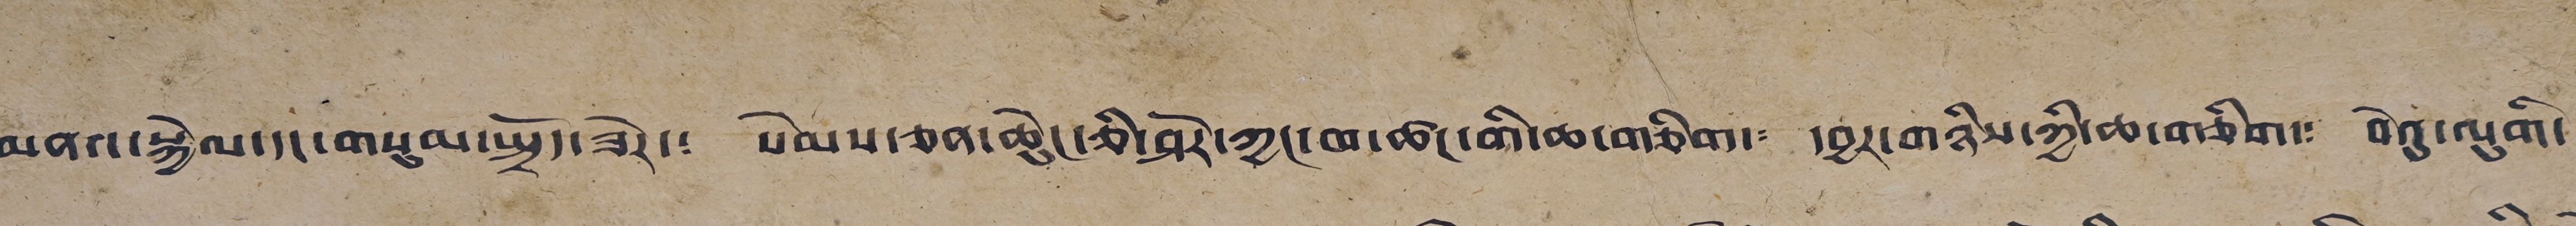མནའ་སྐྱེལ་དང་གསུམ་སྤྲོད་ཟེར་༴ སེམས་ཅན་ཆེུང་ཅི་ཤོར་ཀྱང་ཁ་ཚང་གི་ཆ་གཅིག་༴ དབྱར་གཉིས་ཀྱི་ཆ་བཅིག་༴ བེའུ་ལུགི་
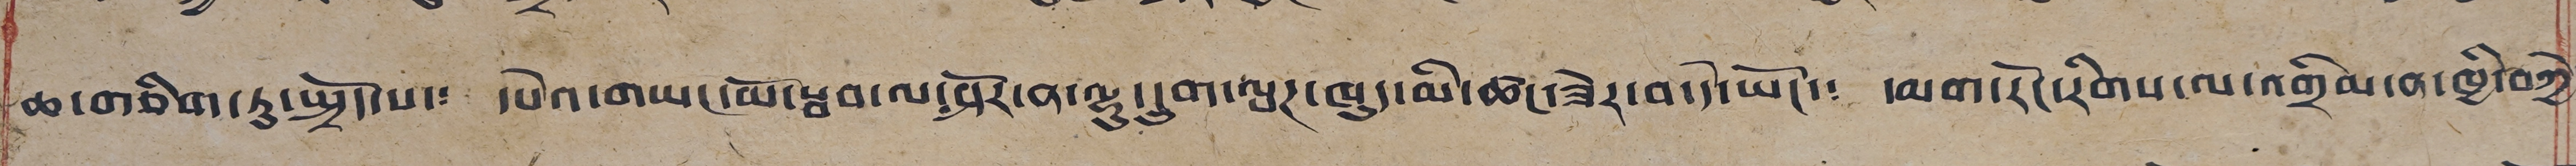ཆ་གཅིག་ཏུ་སྤྲོད་པ་༴ དཔེའ་གཡང་མོ་སྦབ་ལ་ཤོར་ན་ལྷུ་དྲུག་ལྤཊ་ཁུད་མི་ཚང་ཟེར་བ་དེ་ཡོང་༴ དམག་རོང་རིགས་ལ་འགྲིམ་ན་ཁྱི་བཀྱེ་
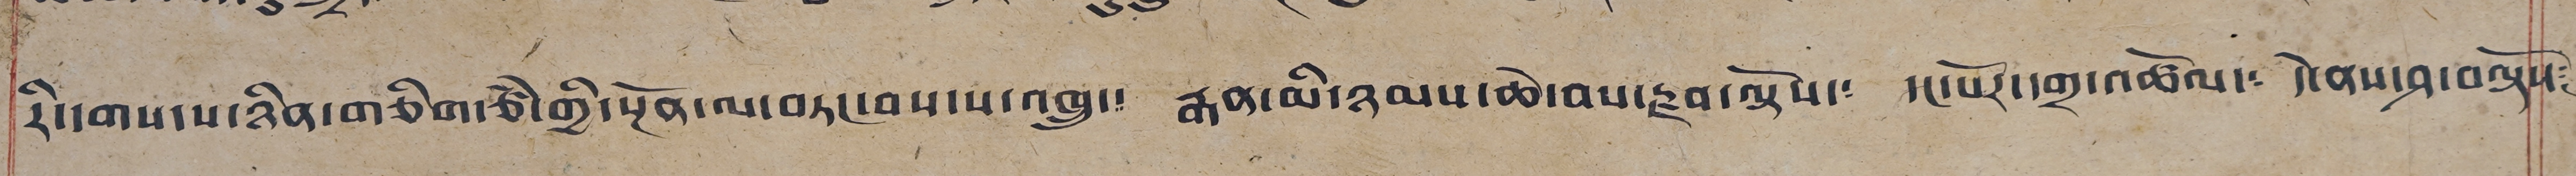རི་དགས་ས་ཉིན་གཅིག་ཙམ་གྱི་སྔོན་ལ་བཏང་བས་ས་འཁྲུ་༴ རྒན་མི་ཉམས་ཆེ་བས་རྫབ་ལྟོས་༴ དང་པོར་དགྲ་འཚོལ་༴ དེ་ནས་ཤ་བལྟོས༴
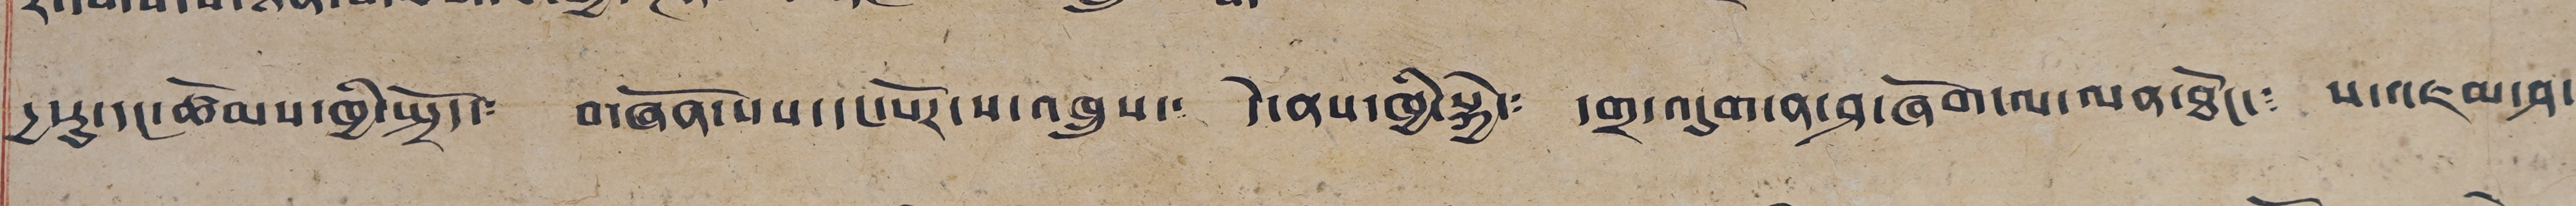དྱ་རུ་དང་ཚོམས་ཁྱི་སྤྲོད་༴ གཞོན་པ་དང་སོར་ས་འཁྲུས་༴ དེ་ནས་ཁྱི་སྐྱེ་༴ དགྲ་འདུག་ན་ཤ་ཞོག་ལ་ལན་ཐོང་༴ པ་འཛམ་ཤ་
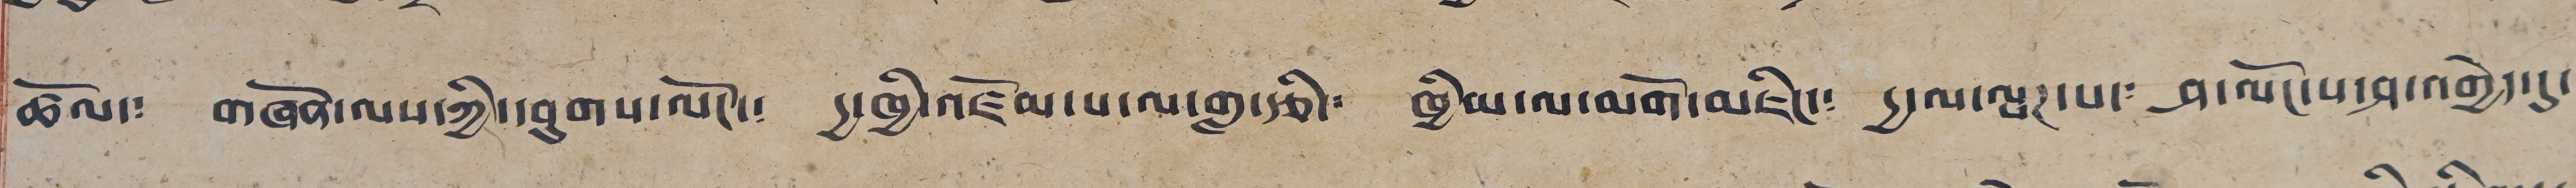ཚོལ་༴ གཞོན་ལས་ཀྱི་བུགས་ལོང་༴ དྱ་ཁྱི་འཛོམ་པ་གླ་གུ་རྩི་༴ ཁྱིམ་ལ་མགོ་མཛིང་༴ དྱ་ལ་ལྤཊ་པ་༴ ཤ་ལོང་པ་ཤ་འགྱེད་དུ་
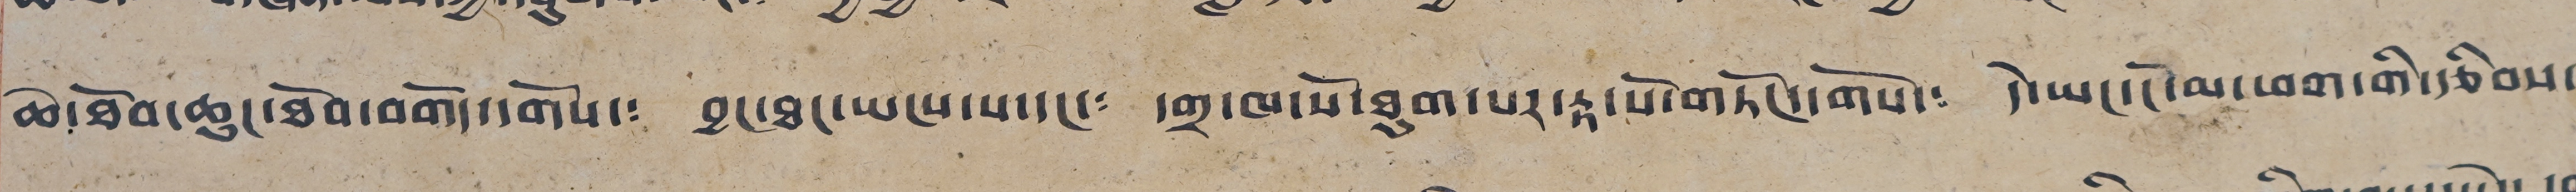ཆེ་ཐོབ་ཆུང་ཐོབ་བགོད་དགོས་༴ བྱང་ཐང་ཡངས་པ་དང་༴ དགྲ་ཁ་སོ་ཐུག་པར་རྟ་པོ་གཏོང་དགོས་༴ དེ་ཡང་ངོ་མ་ཕག་གི་རྩིབས་
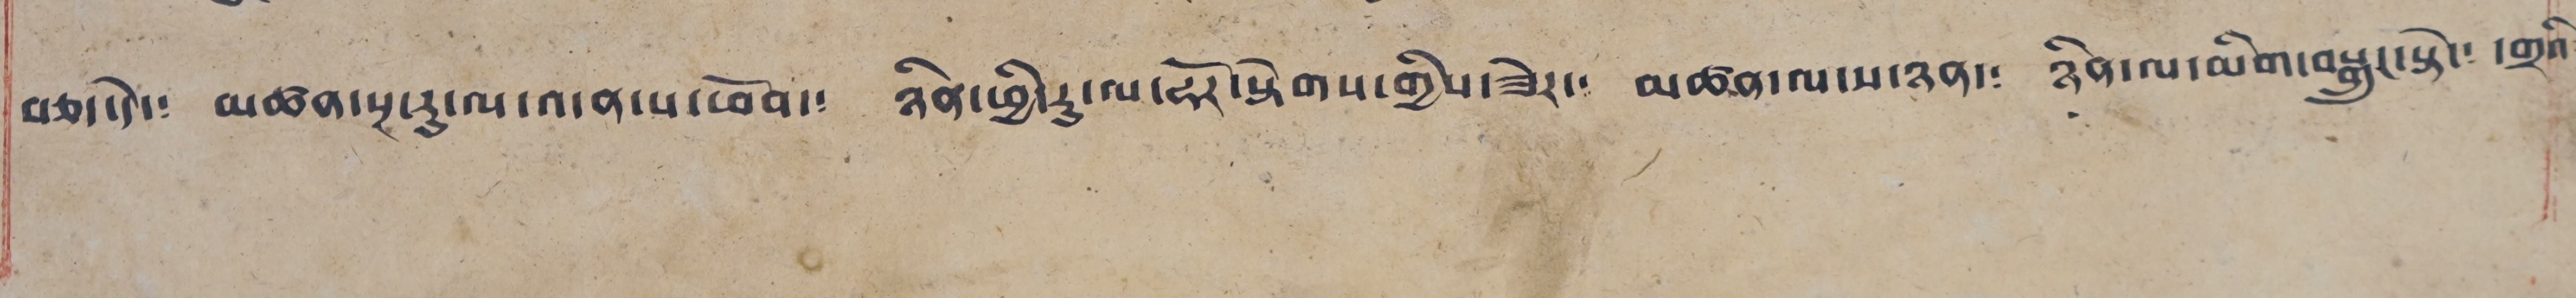བཅད་དེ་༴ མཁན་སྔ་རུ་ལ་འ་ན་པ་ཕོབ་༴ ཉིན་ཕྱི་རུ་ལ་ཧོར་སྟེགས་གྱིས་ཟེར་༴ མཚན་ལ་ས་ཉན་༴ ཉིན་ལ་མིག་བསྒྲུང་སྟེ་༴ དགྲའི༴
